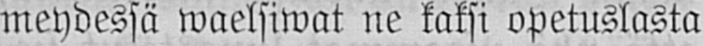meydessä waelsiwat ne kaksi opetuslasta
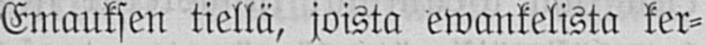Emauksen tiellä, joista ewankelista ker-
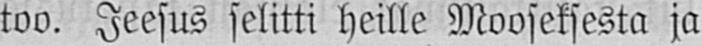too. Jeesus selitti heille Mooseksesta ja
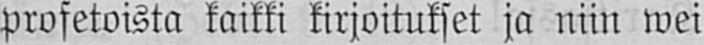profetoista kaikki kirjoitukset ja niin wei
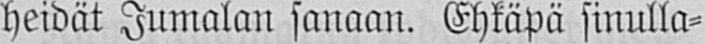heidät Jumalan sanaan. Ehkäpä sinulla-
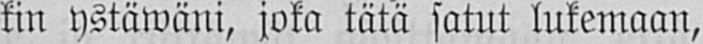kin ystäwäni, joka tätä satut lukemaan,
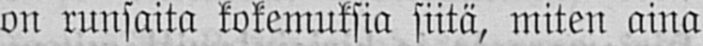on runsaita kokemuksia siitä, miten aina
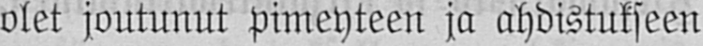olet joutunut pimeyteen ja ahdistukseen
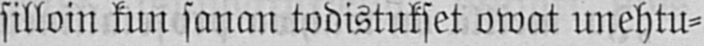silloin kun sanan todistukset owat unehtu-
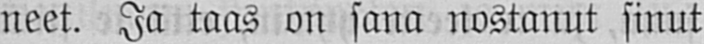neet. Ja taas on sana nostanut sinut
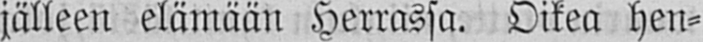jälleen elämään Herrassa. Oikea hen-
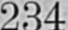234
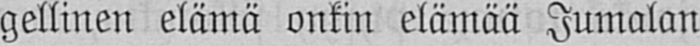gellinen elämä onkin elämää Jumalan
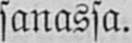sanassa.
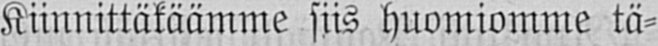Kiinnittäkäämme siis huomiomme tä-
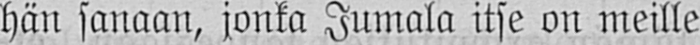hän sanaan, jonka Jumala itse on meille
